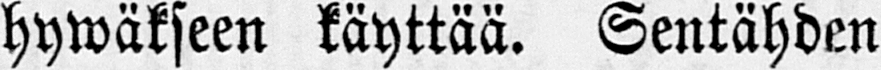hywäkseen käyttää. Sentähden
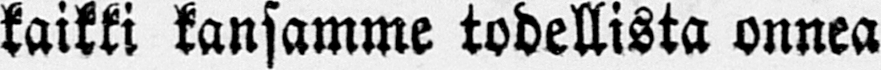kaikki kansamme todellista onnea
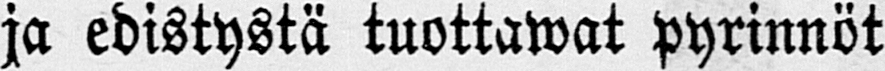ja edistystä tuottawat pyrinnöt
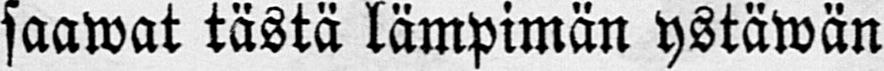saawat tästä lämpimän ystäwän
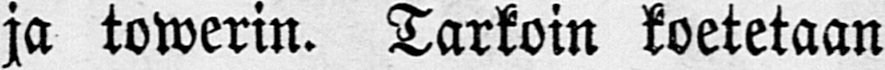ja towerin. Tarkoin koetetaan
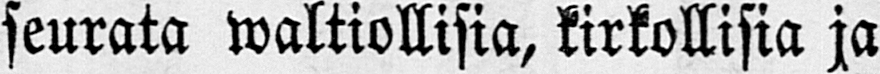seurata waltiollisia, kirkollisia ja
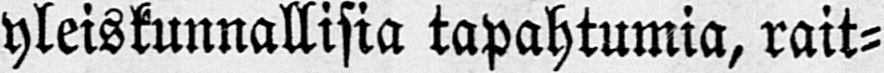yleiskunnallisia tapahtumia, rait-
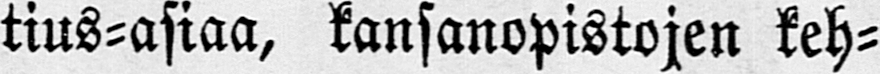tius-asiaa, kansanopistojen keh-
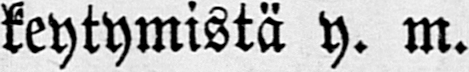keytymistä y. m.
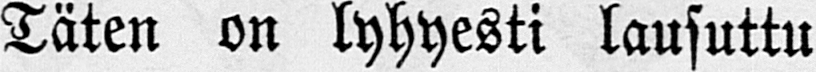Täten on lyhyesti lausuttu
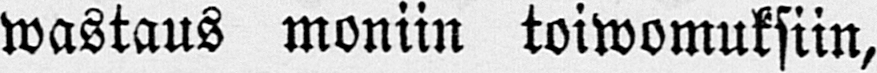wastaus moniin toiwomuksiin,
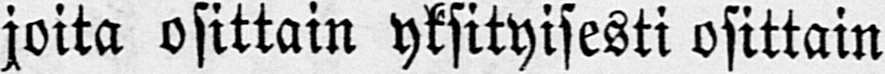joita osittain yksityisesti osittain
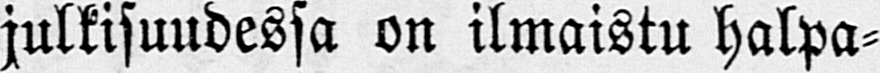julkisuudessa on ilmaistu halpa-
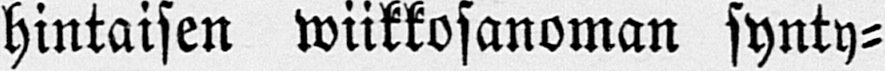hintaisen wiikkosanoman synty-
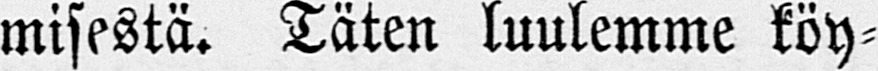misestä. Täten luulemme köy-
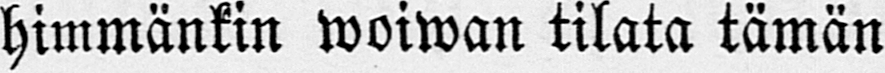himmänkin woiwan tilata tämän
